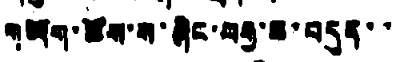གཡོག་ཚོས་ས་ཞིང་བརྒྱ་ཆ་བདུན་་
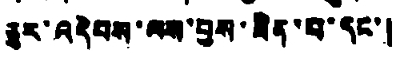ཅུར་འདེབས་ལས་བྱས་ཟིན་པ་དང་།
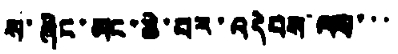ས་ཞིང་མང་ཆེ་བར་འདེབས་ལས་་་
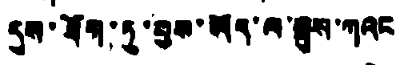དུས་ཐོག་ཏུ་བྱས་ཡོད་ལ་སྦུས་ཀའང
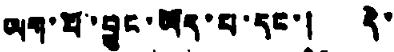ཡག་པོ་བྱུང་ཡོད་པ་དང་། དེ་
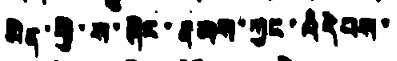མིན་གྱི་ས་ཞིང་རྣམས་ཀྱང་འདེབས་
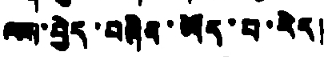ལས་བྱེད་བཞིན་ཡོད་པ་རེད།
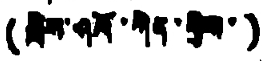(རླིས་ཤའོ་ཀེན་གྱིས་)
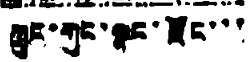ཀྲུང་གུང་སྣང་རྫོང་་་
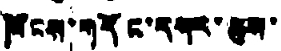ཁོངས་གདོང་དཀར་ཆུས་
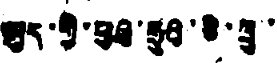ཨུད་ཀྱི་ཕུའུ་ཧྲུའུ་ཅི་ཀྲུ་་
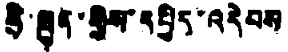ཧྲི་ཁྲུན་གྱིས་དཔྱིད་འདེབས
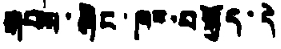སྐབས་ཞིང་ཁར་བསྐྱོད་དེ
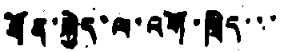ཐོན་སྐྱེད་ལ་འགོ་ཁྲིད་་་
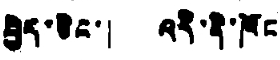བྱེད་ཅིང་། འདི་ནི་ཁོང
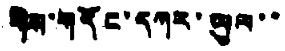གིས་གདོང་དཀར་ཡུལ་་
